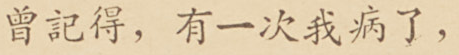曾記得，有一次我病了，
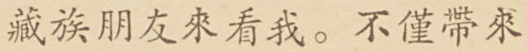藏族朋友來看我。不僅帶來
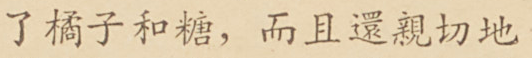了橘子和糖，而且還親切地
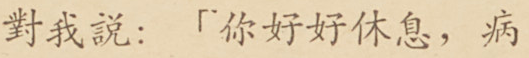對我說：「你好好休息，病
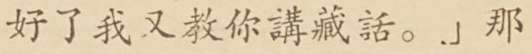好了我又教你講藏話。」那
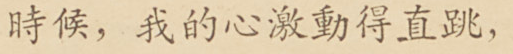時候，我的心激動得直跳，
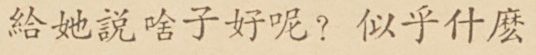給她說啥子好呢？似乎什麼
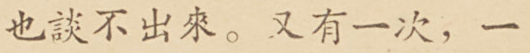也談不出來。又有一次，一
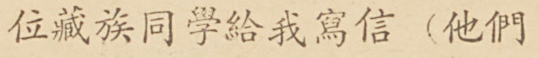位藏族同學給我寫信（他們
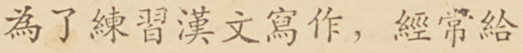爲了練習漢文寫作，經常給
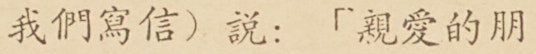我們寫信）說：「親愛的朋
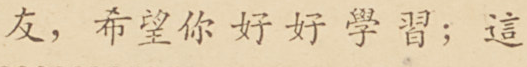友，希望你好好學習；這
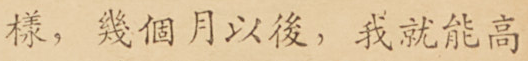樣，幾個月以後，我就能高
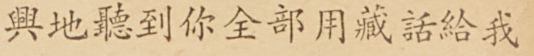興地聽到你全部用藏話給我
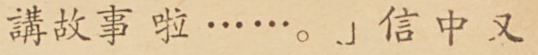講故事啦……。」信中又
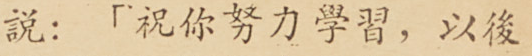說：「祝你努力學習，以後
